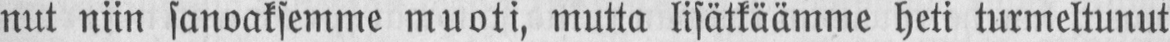nut niin sanoaksemme muoti, mutta lisätkäämme heti turmeltunut
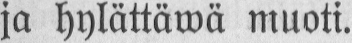ja hylättäwä muoti.
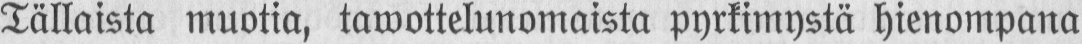Tällaista muotia, tawottelunomaista pyrkimystä hienompana
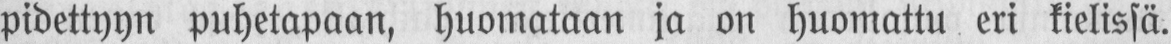pidettyyn puhetapaan, huomataan ja on huomattu eri kielissä.
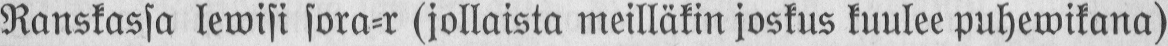Ranskassa lewisi sora-r (jollaista meilläkin joskus kuulee puhewikana)
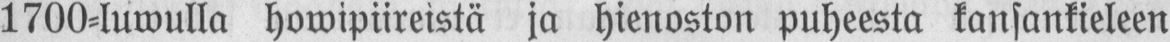1700-luwulla howipiireistä ja hienoston puheesta kansankieleen
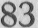83
